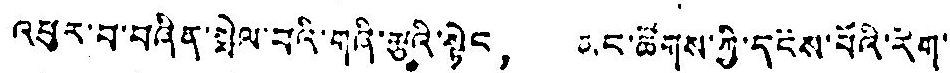འཕུར་བ་བཞིན་སྤེལ་བའི་གཞི་རྩའི་སྟེང， མང་ཚོགས་ཀྱི་དངོས་པོའི་རིག་
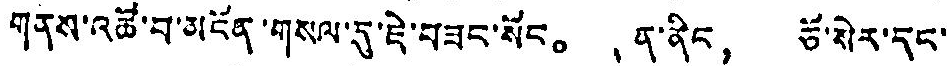གནས་འཚོ་བ་མངོན་གསལ་དུ་ཇེ་བཟང་སོང。 ན་ནིང， ཅོ་སེར་དང་
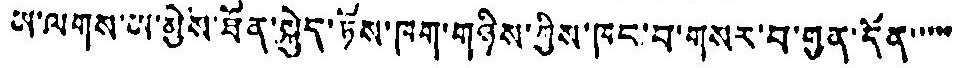ཡ་ལགས་ཡ་མྱེས་ཐོན་སྐྱེད་ཏོས་ཁག་གཉིས་ཀྱིས་ཁང་བ་གསར་བ་གྱན་དོན་་་་་
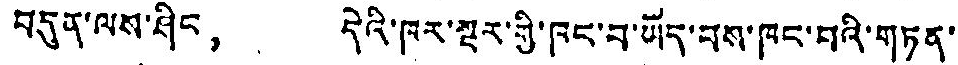བདུན་ལས་ཤིང， དེའི་ཁར་སྔར་གྱི་ཁང་བ་ཡོད་པས་ཁང་བའི་གཏན་
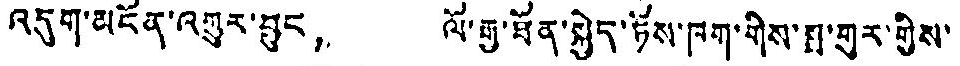འདུག་མངོན་འགྱུར་བྱུང， ལོ་རྒྱུ་ཐོན་སྐྱེད་ཏོས་ཁག་གིས་སྒྲ་གུར་གྱིས་
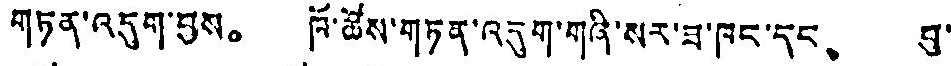གཏན་འདུག་བྱས。 ཁོ་ཚོས་གཏན་འདུག་གཞི་སར་ཟ་ཁང་དང、 བུ་
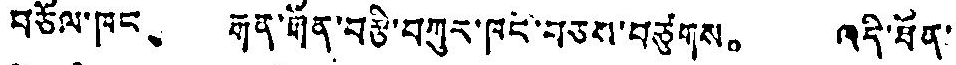བཅོལ་ཁང、 རྒན་རྒོན་བརྩི་བཀུར་ཁང་བཅས་བཙུགས。 འདི་ཐོན་
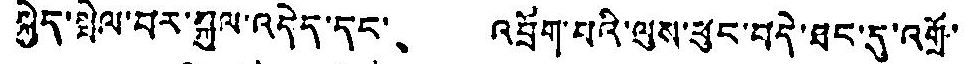སྐྱེད་སྤེལ་བར་སྐུལ་འདེད་དང་、 འབྲོག་པའི་ལུས་ཕུང་བདེ་ཐང་དུ་འགྲོ་
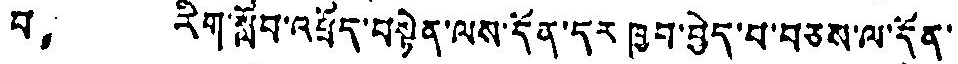བ， རིག་སློབ་འཕྲོད་བསྟེན་ལས་དོན་དར ཁྱབ་བྱེད་པ་བཅས་ལ་དོན་
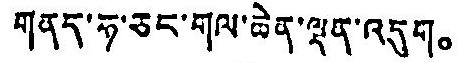གནད་ཧ་ཅང་གལ་ཆེན་ལྡན་འདུག。
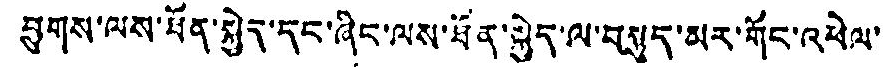ཕྱུགས་ལས་ཐོན་སྐྱེད་དང་ཞིང་ལས་ཐོན་བྱེད་ལ་བསྟུད་མར་གོང་འཕེལ་
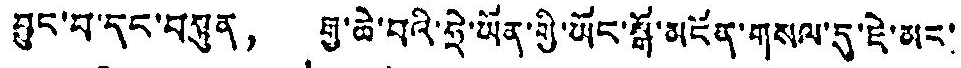བྱུང་བ་དང་བསྟུན， རྒྱ་ཆེ་བའི་ཧྲེ་ཡོན་གྱི་ཡོང་སྒོ་མངོན་གསལ་དུ་ཇེ་མང་་
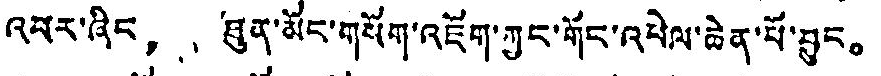འབར་ཞིང， ཐུན་མོང་གསོག་འཇོག་ཀྱང་གོང་འཕེལ་ཆེན་པོ་བྱུང。
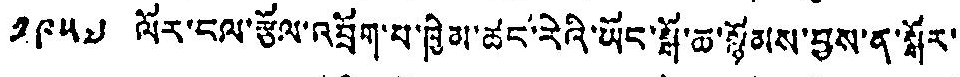༡༩༥༧ ལོར་ངལ་རྩོལ་འབྲོག་པ་ཁྱིམ་ཚང་རེའི་ཡོང་སྒོ་ཆ་སྙོམས་བྱས་ན་སྒོར་་
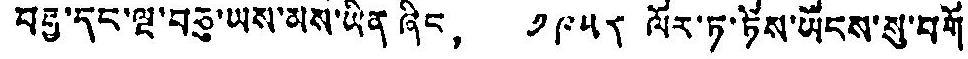བརྒྱ་དང་ལྔ་བཅུ་ཡས་མས་ཡིན ཞིང， ༡༩༥༨ ལོར་ཏ་ཏོས་ཡོངས་སུ་བགོ
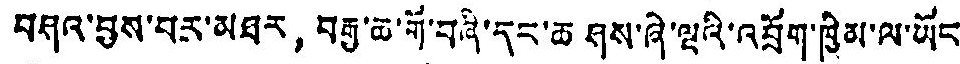བཤའ་བྱས་པར་མཐར，བརྒྱ་ཆ་གོ་བཞི་དང་ཆ ཤས་ཞེ་ལྔའི་འབྲོག་ཁྱིམ་ལ་ཡོང
